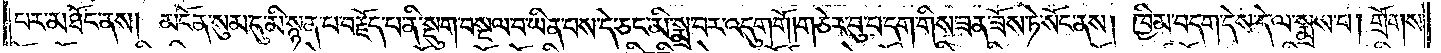པར་མཐོང་ནས། མངོན་སུམ་དུ་མི་སྙན་པ་བརྗོད་པ་ནི་སྡུག་བསྔལ་བ་ཡིན་པས་དེ་ཅང་མི་སྨྲ་བར་འདུག་གོ །གཅེར་བུ་པ་དག་གིས་ཟན་ཟོས་ཏེ་སོང་ནས། ཁྱིམ་བདག་དེས་དེ་ལ་སྨྲས་པ། གྲོགས་
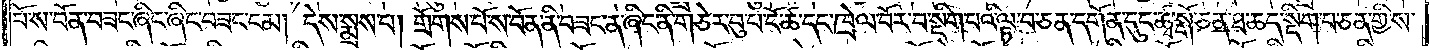པོ་ས་བོན་བཟང་ཞིང་ཞིང་བཟང་ངམ། དེས་སྨྲས་པ། གྲོགས་པོ་ས་བོན་ནི་བཟང་ན་ཞིང་ནི་གཅེར་བུ་པ་ངོ་ཚ་དང་ཁྲེལ་བོར་བ་སྡིག་པའི་ལྟ་བ་ཅན་དགོན་དུང་ཚྭ་སྒོ་ཅན་ཐ་ཆད་སྡིག་པ་ཅན་གྱི་ས་
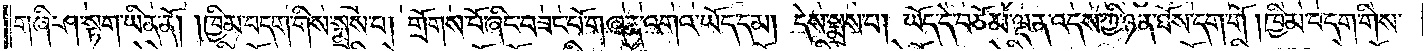གཞི་ཤ་སྟག་ཡིན་ནོ། །ཁྱིམ་བདག་གིས་སྨྲས་པ། གྲོགས་པོ་ཞིང་བཟང་པོ་གཞན་འགའ་ཡོད་དམ། དེས་སྨྲས་པ། ཡོད་དེ་བཅོམ་ལྡན་འདས་ཀྱི་ཉན་ཐོས་དག་གོ །ཁྱིམ་བདག་གིས་
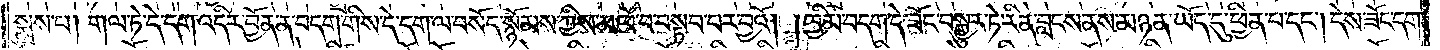སྨྲས་པ། གལ་ཏེ་དེ་དག་འདིར་བྱོན་ན་བདག་གིས་དེ་དག་ལ་བསོད་སྙོམས་ཀྱིས་མཁོ་བ་བསྟབ་པར་བྱའོ། །ཁྱིམ་བདག་དེ་ཟོང་བསྒྱུར་ཏེ་རིན་བླངས་ནས་མཉན་ཡོད་དུ་ཕྱིན་པ་དང༌། དེས་ཟོང་དག་
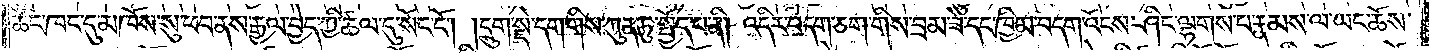ཚོང་ཁང་དུ་མཁོས་སུ་ཕབ་ནས་རྒྱལ་བྱེད་ཀྱི་ཚལ་དུ་སོང་ངོ༌། །དྲུག་སྡེ་དག་གིས་ཀུན་ཏུ་སྤྱོད་པ་ནི། འདིར་བདག་ཅག་གིས་བྲམ་ཟེ་དང་ཁྱིམ་བདག་འོངས་ཤིང་ལྷགས་པ་རྣམས་ལ་ཡང་ཆོས་
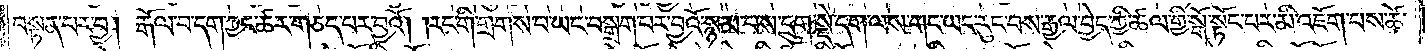བསྟན་པར་བྱ། རྒོལ་བ་དག་ཀྱང་ཚར་གཅད་པར་བྱའོ། །རང་གི་གྲགས་པ་ཡང་བསྒྲག་པར་བྱའོ་སྙམ་པས་དྲུག་སྡེ་དག་ལས་གང་ཡང་རུང་བས་རྒྱལ་བྱེད་ཀྱི་ཚལ་གྱི་སྒོ་སྟོང་པར་མི་འཇོག་པས་ཚེ་
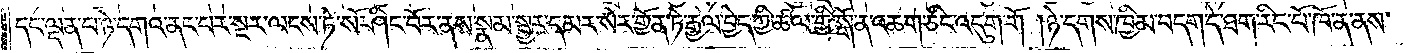དང་ལྡན་པ་ཉེ་དགའ་ནང་བར་སྔར་ལངས་ཏེ་སོ་ཤིང་པོར་ནས་སྣམ་སྦྱར་དམར་སེར་གྱོན་ཏེ་རྒྱལ་བྱེད་ཀྱི་ཚལ་གྱི་སྒོ་ན་འཆག་ཅིང་འདུག་གོ །ཉེ་དགས་ཁྱིམ་བདག་དེ་ཐག་རིང་པོ་ཁོ་ན་ནས་
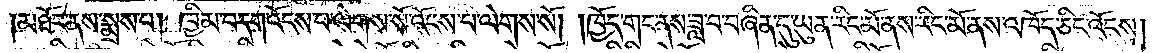མཐོང་ནས་སྨྲས་པ། ཁྱིམ་བདག་འོངས་པ་ལེགས་སོ་འོངས་པ་ལེགས་སོ། །ཁྱོད་གང་ནས་ཟླ་བ་བཞིན་དུ་ཡུན་རིང་མོ་ནས་རིང་མོ་ནས་འཁོད་ཅིང་འོངས།
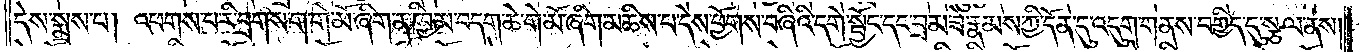དེས་སྨྲས་པ། འཕགས་པ་རི་བྲགས་ག་གེ་མོ་ཞིག་ན་ཁྱིམ་བདག་ཆེ་གེ་མོ་ཞིག་མཆིས་པ་དེས་ཕྱོགས་བཞིའི་དགེ་སྦྱོང་དང་བྲམ་ཟེ་རྣམས་ཀྱི་དོན་དུ་འདུག་གནས་བགྱིད་དུ་སྩལ་ནས།
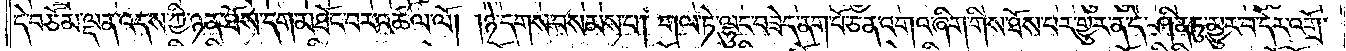དེ་བཅོམ་ལྡན་འདས་ཀྱི་ཉན་ཐོས་དག་མཐོང་བར་འཚལ་ལོ། །ཉེ་དགས་བསམས་པ། གལ་ཏེ་ལྷུང་བཟེད་ནག་པོ་ཅན་འགའ་ཞིག་གིས་ཐོས་པར་གྱུར་ན་དེ་ཤིན་ཏུ་མྱུར་བ་དེར་འགྲོ་
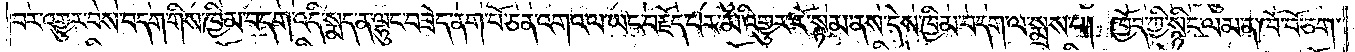བར་འགྱུར་བས་བདག་གིས་ཁྱིམ་བདག་འདི་སྨད་ན་ལྷུང་བཟེད་ནག་པོ་ཅན་འགའ་ལ་ཡང་བརྗོད་པར་མི་འགྱུར་རོ་སྙམ་ནས་དེས་ཁྱིམ་བདག་ལ་སྨྲས་པ། ཁྱོད་ཀྱི་སྙིང་ལམ་ན་ཁོ་བོ་ཅག་
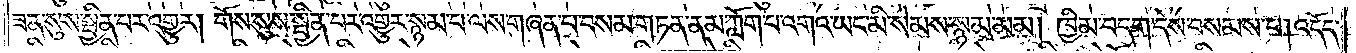ཟན་སུས་སྦྱིན་པར་འགྱུར། གོས་སུས་སྦྱིན་པར་འགྱུར་སྙམ་པ་ལས་གཞན་པ་བསམ་གཏན་ནམ་ཀློག་པ་འགའ་ཡང་མི་སེམས་སྙམ་མམ། ཁྱིམ་བདག་དེས་བསམས་པ། འདོད་
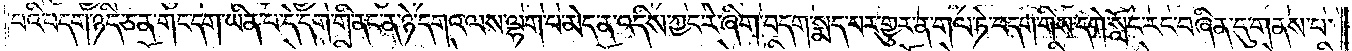པའི་བདག་ཉིད་ཅན་གང་དག་ཡིན་པ་དེ་དག་གི་ནང་ན་ཉེ་དགའ་ལས་ལྷག་པ་མེད་ན་འདིས་ཀྱང་རེ་ཞིག་བདག་སྨད་པར་གྱུར་ན་གལ་ཏེ་བདག་གིས་དགེ་སློང་རང་བཞིན་དུ་གནས་པ་
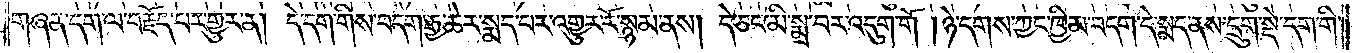གཞན་དག་ལ་བརྗོད་པར་གྱུར་ན། དེ་དག་གིས་བདག་རྒྱ་ཆེར་སྨད་པར་འགྱུར་རོ་སྙམ་ནས། དེ་ཅང་མི་སྨྲ་བར་འདུག་གོ །ཉེ་དགས་ཀྱང་ཁྱིམ་བདག་དེ་སྨད་ནས་དྲུག་སྡེ་དག་གི་
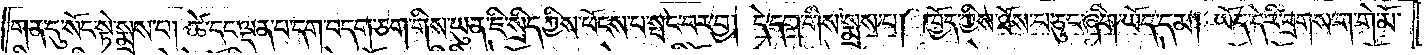གན་དུ་སོང་སྟེ་སྨྲས་པ། ཚེ་དང་ལྡན་པ་དག་བདག་ཅག་གིས་ཡུན་ཇི་སྲིད་ཀྱིས་ཕོངས་པ་སྤང་བར་བྱ། དེ་དག་གིས་སྨྲས་པ། ཁྱོད་ཀྱིས་ཐོས་པ་ཅུང་ཞིག་ཡོད་དམ། ཡོད་དེ་རི་བྲགས་ག་གེ་མོ་
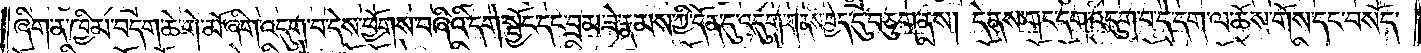ཞིག་ན་ཁྱིམ་བདག་ཆེ་གེ་མོ་ཞིག་འདུག་པ་དེས་ཕྱོགས་བཞིའི་དགེ་སྦྱོང་དང་བྲམ་ཟེ་རྣམས་ཀྱི་དོན་དུ་འདུག་གནས་བྱེད་དུ་བཅུག་ནས། དེ་ནས་གང་དག་འདུག་པ་དེ་དག་ལ་ཆོས་གོས་དང་བསོད་
